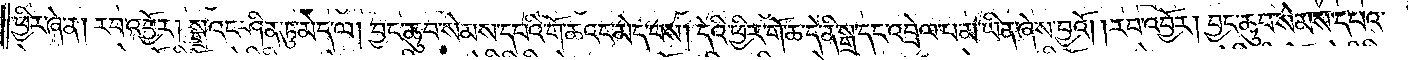ཕྱིར་ཞེ་ན། རབ་འབྱོར། སྒྲའང་ཤིན་ཏུ་མེད་ལ། བྱང་ཆུབ་སེམས་དཔའི་གོ་ཆའང་མེད་པས། དེའི་ཕྱིར་གོ་ཆ་དེ་ནི་སྒྲ་དང་འབྲེལ་པ་མ་ཡིན་ཞེས་བྱའོ། །རབ་འབྱོར། བྱང་ཆུབ་སེམས་དཔའ་
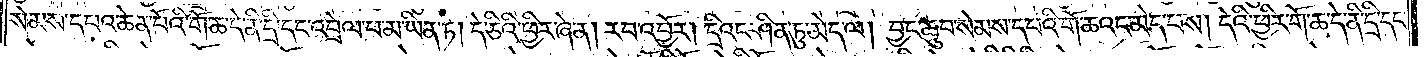སེམས་དཔའ་ཆེན་པོའི་གོ་ཆ་དེ་ནི་དྲི་དང་འབྲེལ་པ་མ་ཡིན་ཏེ། དེ་ཅིའི་ཕྱིར་ཞེ་ན། རབ་འབྱོར། དྲིའང་ཤིན་ཏུ་མེད་ལ། བྱང་ཆུབ་སེམས་དཔའི་གོ་ཆའང་མེད་པས། དེའི་ཕྱིར་གོ་ཆ་དེ་ནི་དྲི་དང་
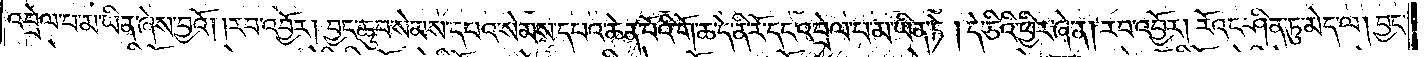འབྲེལ་པ་མ་ཡིན་ཞེས་བྱའོ། །རབ་འབྱོར། བྱང་ཆུབ་སེམས་དཔའ་སེམས་དཔའ་ཆེན་པོའི་གོ་ཆ་དེ་ནི་རོ་དང་འབྲེལ་པ་མ་ཡིན་ཏེ། དེ་ཅིའི་ཕྱིར་ཞེ་ན། རབ་འབྱོར། རོའང་ཤིན་ཏུ་མེད་ལ། བྱང་
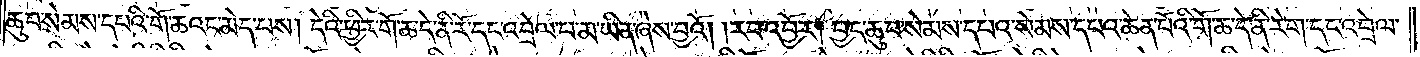ཆུབ་སེམས་དཔའི་གོ་ཆའང་མེད་པས། དེའི་ཕྱིར་གོ་ཆ་དེ་ནི་རོ་དང་འབྲེལ་པ་མ་ཡིན་ཞེས་བྱའོ། །རབ་འབྱོར། བྱང་ཆུབ་སེམས་དཔའ་སེམས་དཔའ་ཆེན་པོའི་གོ་ཆ་དེ་ནི་རེག་པ་དང་འབྲེལ་
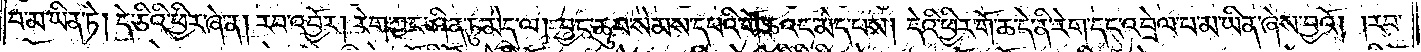པ་མ་ཡིན་ཏེ། དེ་ཅིའི་ཕྱིར་ཞེ་ན། རབ་འབྱོར། རེག་ཀྱང་ཤིན་ཏུ་མེད་ལ། བྱང་ཆུབ་སེམས་དཔའི་གོ་ཆའང་མེད་པས། དེའི་ཕྱིར་གོ་ཆ་དེ་ནི་རེག་དང་འབྲེལ་པ་མ་ཡིན་ཞེས་བྱའོ། །རབ་
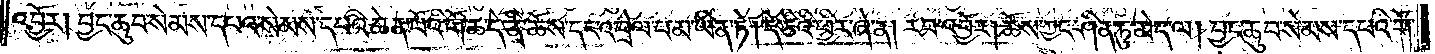འབྱོར། བྱང་ཆུབ་སེམས་དཔའ་སེམས་དཔའ་ཆེན་པོའི་གོ་ཆ་དེ་ནི་ཆོས་དང་འབྲེལ་པ་མ་ཡིན་ཏེ། དེ་ཅིའི་ཕྱིར་ཞེ་ན། རབ་འབྱོར། ཆོས་ཀྱང་ཤིན་ཏུ་མེད་ལ། བྱང་ཆུབ་སེམས་དཔའི་གོ་
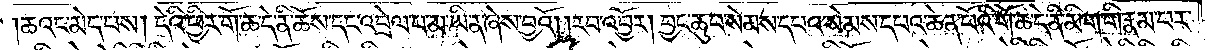ཆའང་མེད་པས། དེའི་ཕྱིར་གོ་ཆ་དེ་ནི་ཆོས་དང་འབྲེལ་པ་མ་ཡིན་ཞེས་བྱའོ། །རབ་འབྱོར། བྱང་ཆུབ་སེམས་དཔའ་སེམས་དཔའ་ཆེན་པོའི་གོ་ཆ་དེ་ནི་མིག་གི་རྣམ་པར་
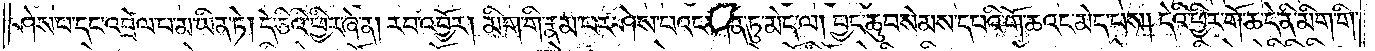ཤེས་པ་དང་འབྲེལ་པ་མ་ཡིན་ཏེ། དེ་ཅིའི་ཕྱིར་ཞེ་ན། རབ་འབྱོར། མིག་གི་རྣམ་པར་ཤེས་པའང་ཤིན་ཏུ་མེད་ལ། བྱང་ཆུབ་སེམས་དཔའི་གོ་ཆའང་མེད་པས། དེའི་ཕྱིར་གོ་ཆ་དེ་ནི་མིག་གི་
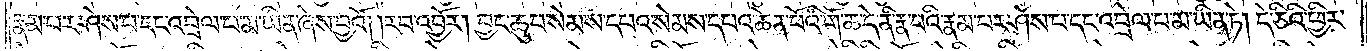རྣམ་པར་ཤེས་པ་དང་འབྲེལ་པ་མ་ཡིན་ཞེས་བྱའོ། །རབ་འབྱོར། བྱང་ཆུབ་སེམས་དཔའ་སེམས་དཔའ་ཆེན་པོའི་གོ་ཆ་དེ་ནི་རྣ་བའི་རྣམ་པར་ཤེས་པ་དང་འབྲེལ་པ་མ་ཡིན་ཏེ། དེ་ཅིའི་ཕྱིར་
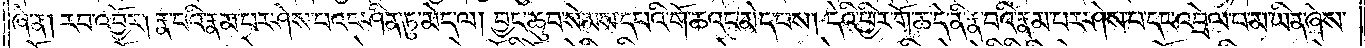ཞེ་ན། རབ་འབྱོར། རྣ་བའི་རྣམ་པར་ཤེས་པའང་ཤིན་ཏུ་མེད་ལ། བྱང་ཆུབ་སེམས་དཔའི་གོ་ཆའང་མེད་པས། དེའི་ཕྱིར་གོ་ཆ་དེ་ནི་རྣ་བའི་རྣམ་པར་ཤེས་པ་དང་འབྲེལ་པ་མ་ཡིན་ཞེས་
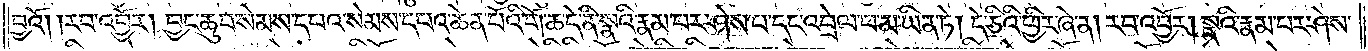བྱའོ། །རབ་འབྱོར། བྱང་ཆུབ་སེམས་དཔའ་སེམས་དཔའ་ཆེན་པོའི་གོ་ཆ་དེ་ནི་སྣའི་རྣམ་པར་ཤེས་པ་དང་འབྲེལ་པ་མ་ཡིན་ཏེ། དེ་ཅིའི་ཕྱིར་ཞེ་ན། རབ་འབྱོར། སྣའི་རྣམ་པར་ཤེས་
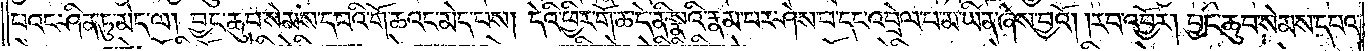པའང་ཤིན་ཏུ་མེད་ལ། བྱང་ཆུབ་སེམས་དཔའི་གོ་ཆའང་མེད་པས། དེའི་ཕྱིར་གོ་ཆ་དེ་ནི་སྣའི་རྣམ་པར་ཤེས་པ་དང་འབྲེལ་པ་མ་ཡིན་ཞེས་བྱའོ། །རབ་འབྱོར། བྱང་ཆུབ་སེམས་དཔའ་
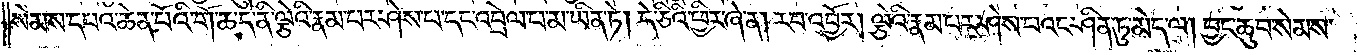སེམས་དཔའ་ཆེན་པོའི་གོ་ཆ་དེ་ནི་ལྕེའི་རྣམ་པར་ཤེས་པ་དང་འབྲེལ་པ་མ་ཡིན་ཏེ། དེ་ཅིའི་ཕྱིར་ཞེ་ན། རབ་འབྱོར། ལྕེའི་རྣམ་པར་ཤེས་པའང་ཤིན་ཏུ་མེད་ལ། བྱང་ཆུབ་སེམས་
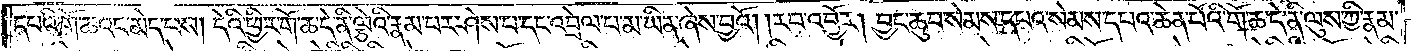དཔའི་གོ་ཆའང་མེད་པས། དེའི་ཕྱིར་གོ་ཆ་དེ་ནི་ལྕེའི་རྣམ་པར་ཤེས་པ་དང་འབྲེལ་པ་མ་ཡིན་ཞེས་བྱའོ། །རབ་འབྱོར། བྱང་ཆུབ་སེམས་དཔའ་སེམས་དཔའ་ཆེན་པོའི་གོ་ཆ་དེ་ནི་ལུས་ཀྱི་རྣམ་
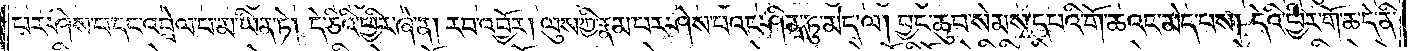པར་ཤེས་པ་དང་འབྲེལ་པ་མ་ཡིན་ཏེ། དེ་ཅིའི་ཕྱིར་ཞེ་ན། རབ་འབྱོར། ལུས་ཀྱི་རྣམ་པར་ཤེས་པའང་ཤིན་ཏུ་མེད་ལ། བྱང་ཆུབ་སེམས་དཔའི་གོ་ཆའང་མེད་པས། དེའི་ཕྱིར་གོ་ཆ་དེ་ནི་
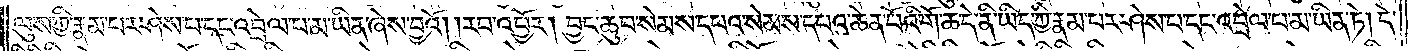ལུས་ཀྱི་རྣམ་པར་ཤེས་པ་དང་འབྲེལ་པ་མ་ཡིན་ཞེས་བྱའོ། །རབ་འབྱོར། བྱང་ཆུབ་སེམས་དཔའ་སེམས་དཔའ་ཆེན་པོའི་གོ་ཆ་དེ་ནི་ཡིད་ཀྱི་རྣམ་པར་ཤེས་པ་དང་འབྲེལ་པ་མ་ཡིན་ཏེ། དེ་
